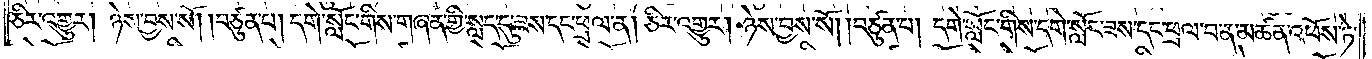ཅིར་འགྱུར། ཉེས་བྱས་སོ། །བཙུན་པ། དགེ་སློང་གིས་གཞན་གྱི་སླད་དུ་ཟས་དང་ཕྲལ་ན། ཅིར་འགྱུར། ཉེས་བྱས་སོ། །བཙུན་པ། དགེ་སློང་གིས་དགེ་སློང་ཟས་དང་ཕྲལ་བ་ན་མཚན་འཕོས་ཏེ་
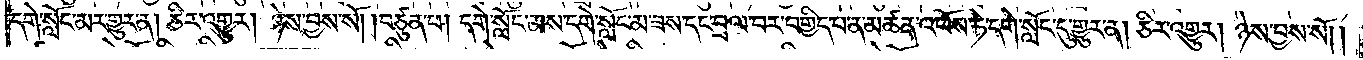དགེ་སློང་མར་གྱུར་ན། ཅིར་འགྱུར། ཉེས་བྱས་སོ། །བཙུན་པ། དགེ་སློང་མས་དགེ་སློང་མ་ཟས་དང་བྲལ་བར་བགྱིད་པ་ན་མཚན་འཕོས་ཏེ་དགེ་སློང་དུ་གྱུར་ན། ཅིར་འགྱུར། ཉེས་བྱས་སོ། །
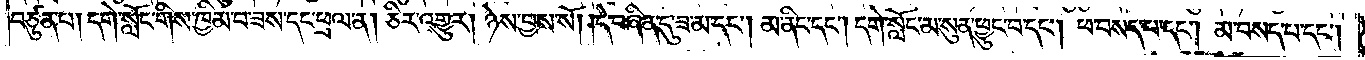བཙུན་པ། དགེ་སློང་གིས་ཁྱིམ་པ་ཟས་དང་ཕྲལ་ན། ཅིར་འགྱུར། ཉེས་བྱས་སོ། །དེ་བཞིན་དུ་ཟ་མ་དང༌། མ་ནིང་དང༌། དགེ་སློང་མ་སུན་ཕྱུང་བ་དང༌། ཕ་བསད་པ་དང༌། མ་བསད་པ་དང༌།
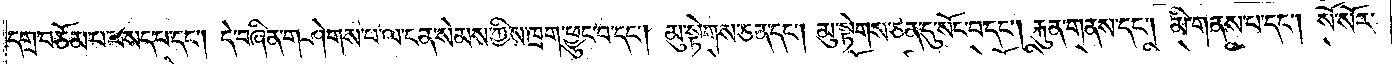དགྲ་བཅོམ་པ་བསད་པ་དང༌། དེ་བཞིན་གཤེགས་པ་ལ་ངན་སེམས་ཀྱིས་ཁྲག་ཕྱུང་བ་དང༌། མུ་སྟེགས་ཅན་དང༌། མུ་སྟེགས་ཅན་དུ་སོང་བ་དང༌། རྐུན་གནས་དང༌། མི་གནས་པ་དང༌། སོ་སོར་
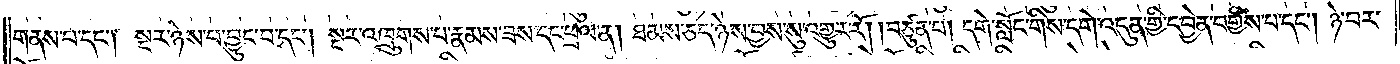གནས་པ་དང༌། སྔར་ཉེས་པ་བྱུང་བ་དང༌། སྔར་འཁྲུགས་པ་རྣམས་ཟས་དང་ཕྲལ་ན། ཐམས་ཅད་ཉེས་བྱས་སུ་འགྱུར་རོ། །བཙུན་པ། དགེ་སློང་གིས་དགེ་འདུན་གྱི་དབྱེན་བགྱིས་པ་དང༌། ཉེ་བར་
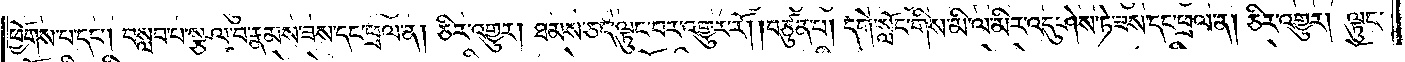ཕྱོགས་པ་དང༌། བསླབ་པ་སྩལ་བ་རྣམས་ཟས་དང་ཕྲལ་ན། ཅིར་འགྱུར། ཐམས་ཅད་ལྟུང་བར་འགྱུར་རོ། །བཙུན་པ། དགེ་སློང་གིས་མི་ལ་མིར་འདུ་ཤེས་ཏེ་ཟས་དང་ཕྲལ་ན། ཅིར་འགྱུར། ལྟུང་
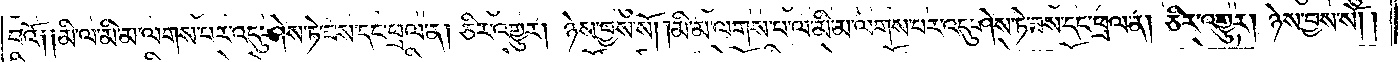བའོ༑ ༑མི་ལ་མི་མ་ལགས་པར་འདུ་ཤེས་ཏེ་ཟས་དང་ཕྲལ་ན། ཅིར་འགྱུར། ཉེས་བྱས་སོ། །མི་མ་ལགས་པ་ལ་མི་མ་ལགས་པར་འདུ་ཤེས་ཏེ་ཟས་དང་ཕྲལ་ན། ཅིར་འགྱུར། ཉེས་བྱས་སོ། །
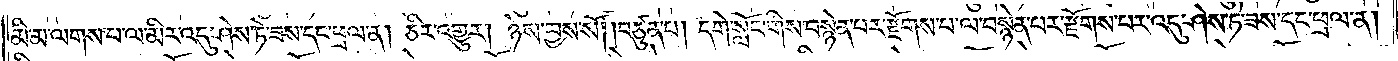མི་མ་ལགས་པ་ལ་མིར་འདུ་ཤེས་ཏེ་ཟས་དང་ཕྲལ་ན། ཅིར་འགྱུར། ཉེས་བྱས་སོ། །བཙུན་པ། དགེ་སློང་གིས་བསྙེན་པར་རྫོགས་པ་ལ་བསྙེན་པར་རྫོགས་པར་འདུ་ཤེས་ཏེ་ཟས་དང་ཕྲལ་ན།
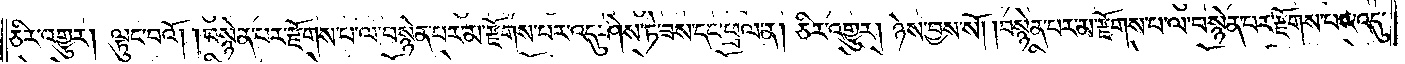ཅིར་འགྱུར། ལྟུང་བའོ། །བསྙེན་པར་རྫོགས་པ་ལ་བསྙེན་པར་མ་རྫོགས་པར་འདུ་ཤེས་ཏེ་ཟས་དང་ཕྲལ་ན། ཅིར་འགྱུར། ཉེས་བྱས་སོ། །བསྙེན་པར་མ་རྫོགས་པ་ལ་བསྙེན་པར་རྫོགས་པར་འདུ་
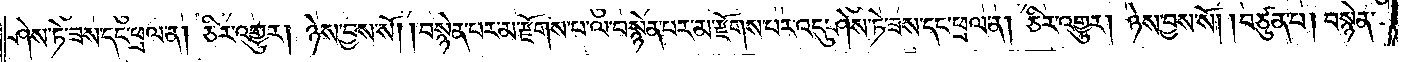ཤེས་ཏེ་ཟས་དང་ཕྲལ་ན། ཅིར་འགྱུར། ཉེས་བྱས་སོ། །བསྙེན་པར་མ་རྫོགས་པ་ལ་བསྙེན་པར་མ་རྫོགས་པར་འདུ་ཤེས་ཏེ་ཟས་དང་ཕྲལ་ན། ཅིར་འགྱུར། ཉེས་བྱས་སོ། །བཙུན་པ། བསྙེན་
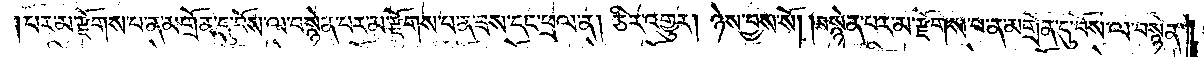།པར་མ་རྫོགས་པ་ན་མགྲོན་དུ་བོས་ལ་བསྙེན་པར་མ་རྫོགས་པ་ན་ཟས་དང་ཕྲལ་ན། ཅིར་འགྱུར། ཉེས་བྱས་སོ། །བསྙེན་པར་མ་རྫོགས་པ་ན་མགྲོན་དུ་བོས་ལ་བསྙེན་
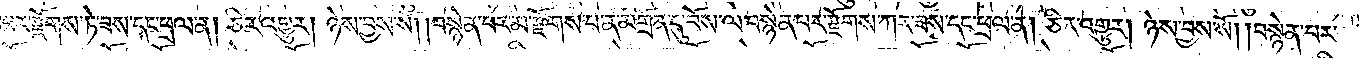པར་རྫོགས་ཏེ་ཟས་དང་ཕྲལ་ན། ཅིར་འགྱུར། ཉེས་བྱས་སོ། །བསྙེན་པར་མ་རྫོགས་པ་ན་མགྲོན་དུ་བོས་ལ་བསྙེན་པར་རྫོགས་ཀར་ཟས་དང་ཕྲལ་ན། ཅིར་འགྱུར། ཉེས་བྱས་སོ། །བསྙེན་པར་
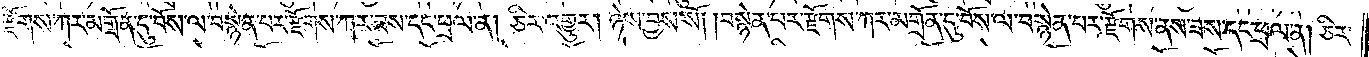རྫོགས་ཀར་མགྲོན་དུ་བོས་ལ་བསྙེན་པར་རྫོགས་ཀར་ཟས་དང་ཕྲལ་ན། ཅིར་འགྱུར། ཉེས་བྱས་སོ། །བསྙེན་པར་རྫོགས་ཀར་མགྲོན་དུ་བོས་ལ་བསྙེན་པར་རྫོགས་ནས་ཟས་དང་ཕྲལ་ན། ཅིར་
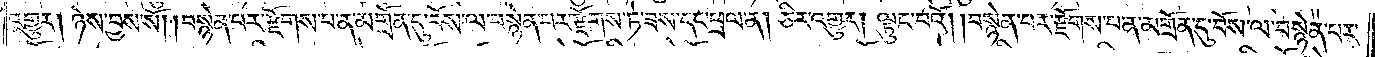འགྱུར། ཉེས་བྱས་སོ། །བསྙེན་པར་རྫོགས་པ་ན་མགྲོན་དུ་བོས་ལ་བསྙེན་པར་རྫོགས་ཏེ་ཟས་དང་ཕྲལ་ན། ཅིར་འགྱུར། ལྟུང་བའོ། །བསྙེན་པར་རྫོགས་པ་ན་མགྲོན་དུ་བོས་ལ་བསྙེན་པར་
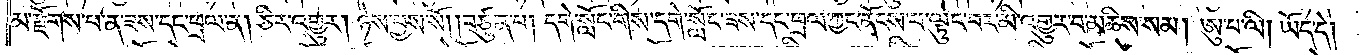མ་རྫོགས་པ་ན་ཟས་དང་ཕྲལ་ན། ཅིར་འགྱུར། ཉེས་བྱས་སོ། །བཙུན་པ། དགེ་སློང་གིས་དགེ་སློང་ཟས་དང་ཕྲལ་ཀྱང་ནོངས་པ་ལྟུང་བར་མི་འགྱུར་བ་མཆིས་སམ། ཨུ་པ་ལི། ཡོད་དེ།
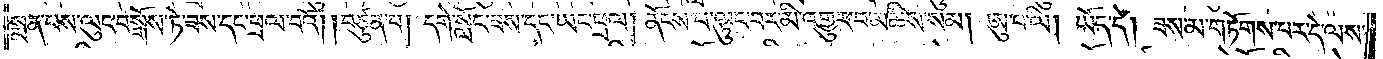སྨན་པས་ལུང་བསྒོས་ཏེ་ཟས་དང་ཕྲལ་བའོ། །བཙུན་པ། དགེ་སློང་ཟས་དང་ཡང་ཕྲལ། ནོངས་པ་ལྟུང་བར་མི་འགྱུར་བ་མཆིས་སམ། ཨུ་པ་ལི། ཡོད་དེ། ཟས་མ་གཏོགས་པར་དེ་ལས་
